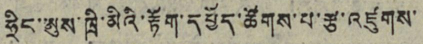ཧྲིང་ཨུས་ཁྲི་མིའི་རྟོག་དཔྱོད་ཚོགས་པ་རྩ་འཛུགས་
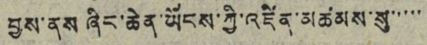བྱས་ནས ཞིང་ཆེན་ཡོངས་ཀྱི་འཛིན་མཚམས་སུ་་་་་
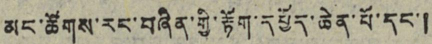མང་ཚོགས་རང་བཞིན་གྱི་རྟོག་དཔྱོད་ཆེན་པོ་དང་།
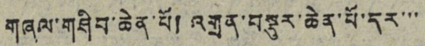གཞལ་གཤིབ་ཆེན་པོ། འགྲན་བསྡུར་ཆེན་པོ་དར་་་་
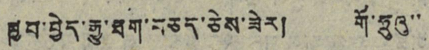ཁྱབ་བྱེད་རྒྱུ་ཐག་བཅད་ཅེས་ཟེར། གོ་ཧྲུའུ་་
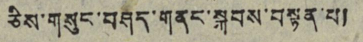ཅིས་གསུང་བཤད་གནང་སྐབས་བསྟན་པ།
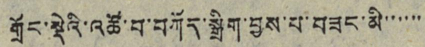གྲོང་སྡེའི་འཚོ་བ་བཀོད་སྒྲིག་བྱས་པ་བཟང་མི་་་་་་
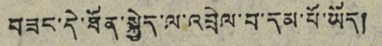བཟང་དེ་ཐོན་སྐྱེད་ལ་འབྲེལ་བ་དམ་པོ་ཡོད།
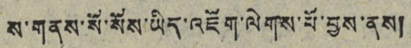ས་གནས་སོ་སོས་ཡིད་འཇོག་ལེགས་པོ་བྱས་ནས།
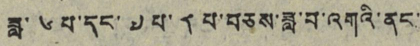ཟླ་ ༦ པ་དང་ ༧ པ་ ༨ པ་བཅས་ཟླ་བ་འགའི་ནང་
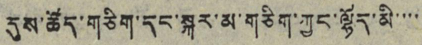དུས་ཚོད་གཅིག་དང་སྐར་མ་གཅིག་ཀྱང་ལྷོད་མི་་་་
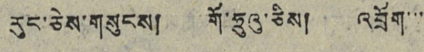རུང་ཅེས་གསུངས། གོ་ཧྲུའུ་ཅིས། འབྲོག་་་
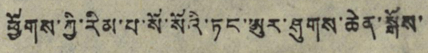ཕྱོགས་ཀྱི་རིམ་པ་སོ་སོའི་ཏང་ཨུར་ཤུགས་ཆེན་སྒོས་
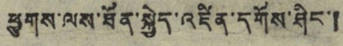ཕྱུགས་ལས་ཐོན་སྐྱེད་འཛིན་དགོས་ཤིང་།
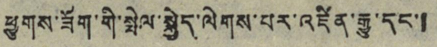ཕྱུགས་ཟོག་གི་སྤེལ་སྐྱེད་ལེགས་པར་འཛིན་རྒྱུ་དང་།
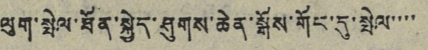ལུག་སྤེལ་ཐོན་སྐྱེད་ཤུགས་ཆེན་སྒོས་གོང་དུ་སྤེལ་་་་
